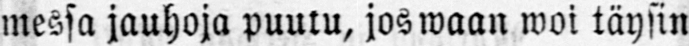messa jauhoja puutu, jos waan woi täysin
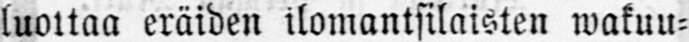luottaa eräiden ilomantsilaisten wakuu-
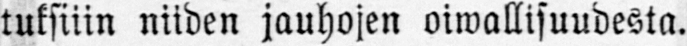tuksiiin niiden jauhojen oiwallisuudesta.
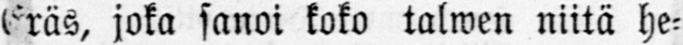Eräs, joka sanoi koko talwen niitä he-
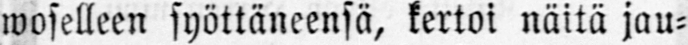woselleen syöttäneensä, kertoi näitä jau-
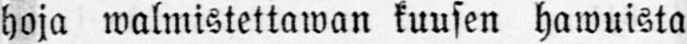hoja walmistettawan kuusen hawuista
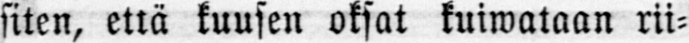siten, että kuusen oksat kuiwataan rii-
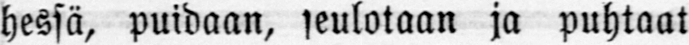hessä, puidaan, seulotaan ja puhtaat
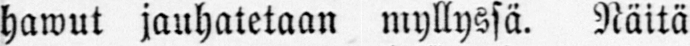hawut jauhatetaan myllyssä. Näitä
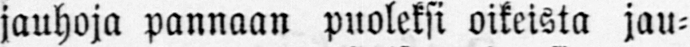jauhoja pannaan puoleksi oikeista jau-
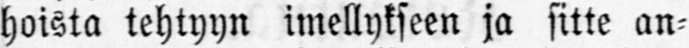hoista tehtyyn imellykseen ja sitte an-
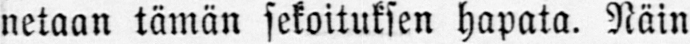netaan tämän sekoituksen hapata. Näin
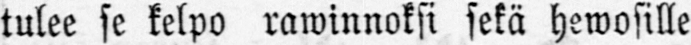tulee se kelpo rawinnoksi sekä hewosille
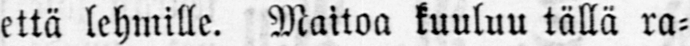että lehmille. Maitoa kuuluu tällä ra-
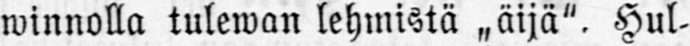winnolla tulewan lehmistä „äijä". Hul-
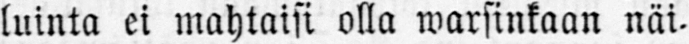luinta ei mahtaisi olla warsinkaan näi-
